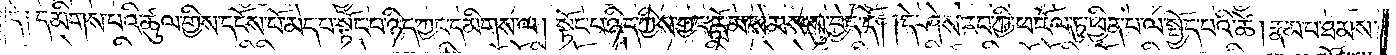དེ། དམིགས་པའི་ཚུལ་གྱིས་དངོས་པོ་མེད་པ་སྟོང་པ་ཉིད་ཀྱང་དམིགས་ལ། སྟོང་པ་ཉིད་ཀྱིས་ཀྱང་རློམ་སེམས་སུ་བྱེད་དོ། །དེ་ཤེས་རབ་ཀྱི་ཕ་རོལ་ཏུ་ཕྱིན་པ་ལ་སྤྱོད་པའི་ཚེ། རྣམ་པ་ཐམས་
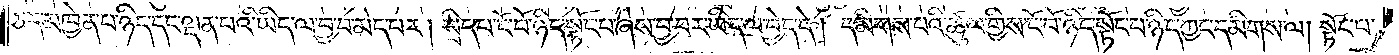ཅད་མཁྱེན་པ་ཉིད་དང་ལྡན་པའི་ཡིད་ལ་བྱ་བ་མེད་པར། སྲིད་པ་ངོ་བོ་ཉིད་སྟོང་པ་ཞེས་བྱ་བར་ཡིད་ལ་བྱེད་དེ། དམིགས་པའི་ཚུལ་གྱིས་ངོ་བོ་ཉིད་སྟོང་པ་ཉིད་ཀྱང་དམིགས་ལ། སྟོང་པ་
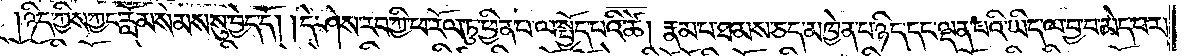ཉིད་ཀྱིས་ཀྱང་རློམ་སེམས་སུ་བྱེད་དོ། །དེ་ཤེས་རབ་ཀྱི་ཕ་རོལ་ཏུ་ཕྱིན་པ་ལ་སྤྱོད་པའི་ཚེ། རྣམ་པ་ཐམས་ཅད་མཁྱེན་པ་ཉིད་དང་ལྡན་པའི་ཡིད་ལ་བྱ་བ་མེད་པར།
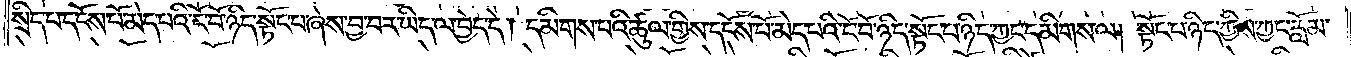སྲིད་པ་དངོས་པོ་མེད་པའི་ངོ་བོ་ཉིད་སྟོང་པ་ཞེས་བྱ་བར་ཡིད་ལ་བྱེད་དེ། དམིགས་པའི་ཚུལ་གྱིས་དངོས་པོ་མེད་པའི་ངོ་བོ་ཉིད་སྟོང་པ་ཉིད་ཀྱང་དམིགས་ལ། སྟོང་པ་ཉིད་ཀྱིས་ཀྱང་རློམ་
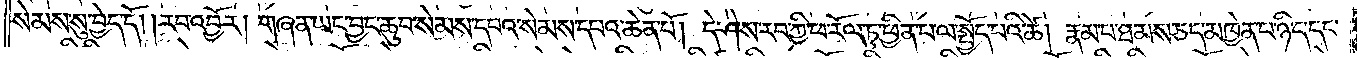སེམས་སུ་བྱེད་དོ། །རབ་འབྱོར། གཞན་ཡང་བྱང་ཆུབ་སེམས་དཔའ་སེམས་དཔའ་ཆེན་པོ། དེ་ཤེས་རབ་ཀྱི་ཕ་རོལ་ཏུ་ཕྱིན་པ་ལ་སྤྱོད་པའི་ཚེ། རྣམ་པ་ཐམས་ཅད་མཁྱེན་པ་ཉིད་དང་
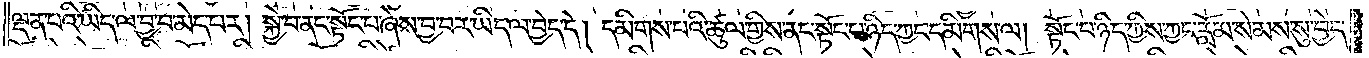ལྡན་པའི་ཡིད་ལ་བྱ་བ་མེད་པར། སྐྱེ་བ་ནང་སྟོང་པ་ཞེས་བྱ་བར་ཡིད་ལ་བྱེད་དེ། དམིགས་པའི་ཚུལ་གྱིས་ནང་སྟོང་པ་ཉིད་ཀྱང་དམིགས་ལ། སྟོང་པ་ཉིད་ཀྱིས་ཀྱང་རློམ་སེམས་སུ་བྱེད་
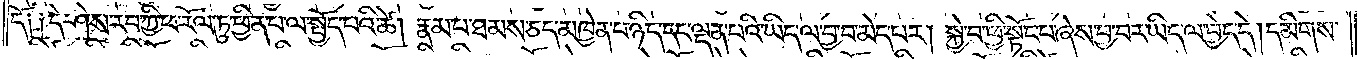དོ། །དེ་ཤེས་རབ་ཀྱི་ཕ་རོལ་ཏུ་ཕྱིན་པ་ལ་སྤྱོད་པའི་ཚེ། རྣམ་པ་ཐམས་ཅད་མཁྱེན་པ་ཉིད་དང་ལྡན་པའི་ཡིད་ལ་བྱ་བ་མེད་པར། སྐྱེ་བ་ཕྱི་སྟོང་པ་ཞེས་བྱ་བར་ཡིད་ལ་བྱེད་དེ། དམིགས་
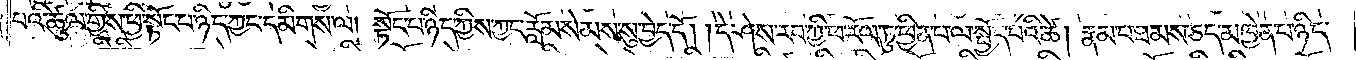པའི་ཚུལ་གྱིས་ཕྱི་སྟོང་པ་ཉིད་ཀྱང་དམིགས་ལ། སྟོང་པ་ཉིད་ཀྱིས་ཀྱང་རློམ་སེམས་སུ་བྱེད་དོ། །དེ་ཤེས་རབ་ཀྱི་ཕ་རོལ་ཏུ་ཕྱིན་པ་ལ་སྤྱོད་པའི་ཚེ། རྣམ་པ་ཐམས་ཅད་མཁྱེན་པ་ཉིད་
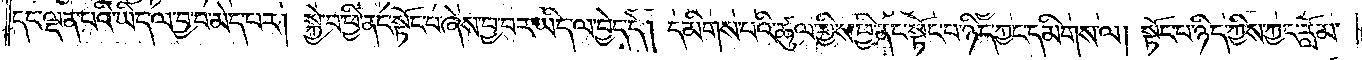དང་ལྡན་པའི་ཡིད་ལ་བྱ་བ་མེད་པར། སྐྱེ་བ་ཕྱི་ནང་སྟོང་པ་ཞེས་བྱ་བར་ཡིད་ལ་བྱེད་དེ། དམིགས་པའི་ཚུལ་གྱིས་ཕྱི་ནང་སྟོང་པ་ཉིད་ཀྱང་དམིགས་ལ། སྟོང་པ་ཉིད་ཀྱིས་ཀྱང་རློམ་
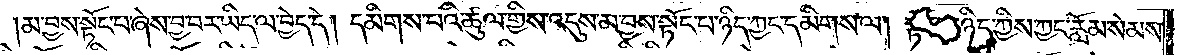མ་བྱས་སྟོང་པ་ཞེས་བྱ་བར་ཡིད་ལ་བྱེད་དེ། དམིགས་པའི་ཚུལ་གྱིས་འདུས་མ་བྱས་སྟོང་པ་ཉིད་ཀྱང་དམིགས་ལ། སྟོང་པ་ཉིད་ཀྱིས་ཀྱང་རློམ་སེམས་
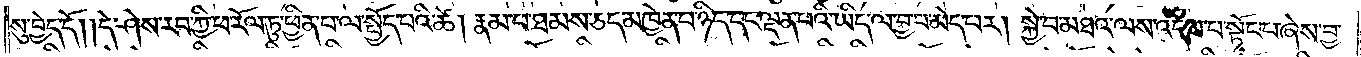སུ་བྱེད་དོ། །དེ་ཤེས་རབ་ཀྱི་ཕ་རོལ་ཏུ་ཕྱིན་པ་ལ་སྤྱོད་པའི་ཚེ། རྣམ་པ་ཐམས་ཅད་མཁྱེན་པ་ཉིད་དང་ལྡན་པའི་ཡིད་ལ་བྱ་བ་མེད་པར། སྐྱེ་བ་མཐའ་ལས་འདས་པ་སྟོང་པ་ཞེས་བྱ་
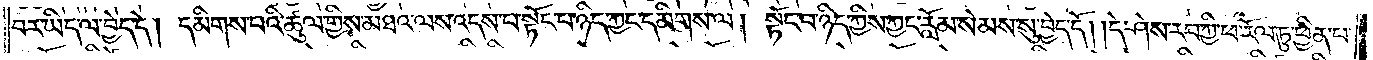བར་ཡིད་ལ་བྱེད་དེ། དམིགས་པའི་ཚུལ་གྱིས་མཐའ་ལས་འདས་པ་སྟོང་པ་ཉིད་ཀྱང་དམིགས་ལ། སྟོང་པ་ཉིད་ཀྱིས་ཀྱང་རློམ་སེམས་སུ་བྱེད་དོ། །དེ་ཤེས་རབ་ཀྱི་ཕ་རོལ་ཏུ་ཕྱིན་པ་
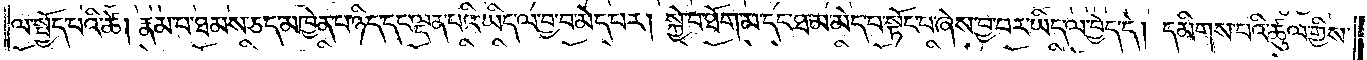ལ་སྤྱོད་པའི་ཚེ། རྣམ་པ་ཐམས་ཅད་མཁྱེན་པ་ཉིད་དང་ལྡན་པའི་ཡིད་ལ་བྱ་བ་མེད་པར། སྐྱེ་བ་ཐོག་མ་དང་ཐ་མ་མེད་པ་སྟོང་པ་ཞེས་བྱ་བར་ཡིད་ལ་བྱེད་དེ། དམིགས་པའི་ཚུལ་གྱིས་
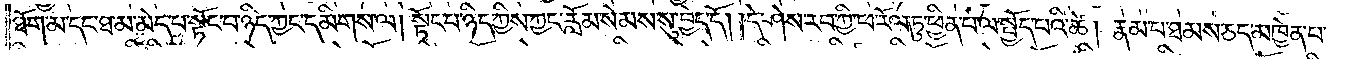ཐོག་མ་དང་ཐ་མ་མེད་པ་སྟོང་པ་ཉིད་ཀྱང་དམིགས་ལ། སྟོང་པ་ཉིད་ཀྱིས་ཀྱང་རློམ་སེམས་སུ་བྱེད་དོ། །དེ་ཤེས་རབ་ཀྱི་ཕ་རོལ་ཏུ་ཕྱིན་པ་ལ་སྤྱོད་པའི་ཚེ། རྣམ་པ་ཐམས་ཅད་མཁྱེན་པ་
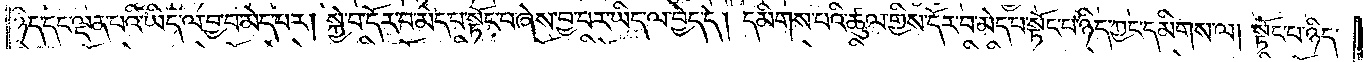ཉིད་དང་ལྡན་པའི་ཡིད་ལ་བྱ་བ་མེད་པར། སྐྱེ་བ་དོར་བ་མེད་པ་སྟོང་པ་ཞེས་བྱ་བར་ཡིད་ལ་བྱེད་དེ། དམིགས་པའི་ཚུལ་གྱིས་དོར་བ་མེད་པ་སྟོང་པ་ཉིད་ཀྱང་དམིགས་ལ། སྟོང་པ་ཉིད་
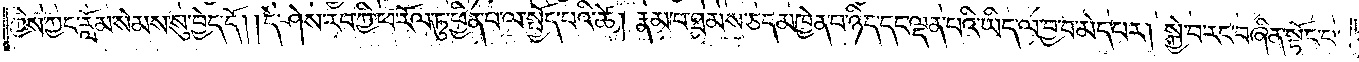ཀྱིས་ཀྱང་རློམ་སེམས་སུ་བྱེད་དོ། །དེ་ཤེས་རབ་ཀྱི་ཕ་རོལ་ཏུ་ཕྱིན་པ་ལ་སྤྱོད་པའི་ཚེ། རྣམ་པ་ཐམས་ཅད་མཁྱེན་པ་ཉིད་དང་ལྡན་པའི་ཡིད་ལ་བྱ་བ་མེད་པར། སྐྱེ་བ་རང་བཞིན་སྟོང་པ་
